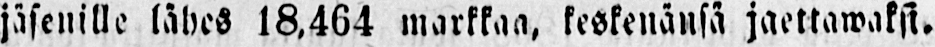jäsenille lähes 18,464 markkaa, keskenänsä jaettawaksi.
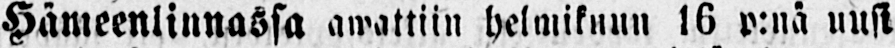Hämeenlinnassa awattiin helmikuun 16 p:nä uusi
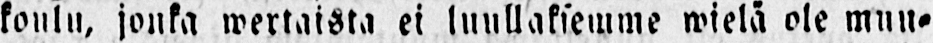koulu, jonka wertaista ei luullaksemme wietä ole muu-
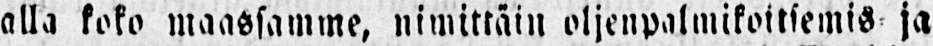alla koko maassamme, nimittäin oljeupalmikoitsemis ja
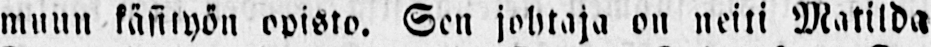muun käsityön opisto. Sen johtaja on neiti Matilda
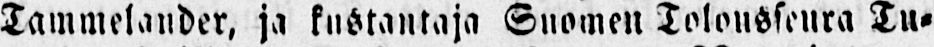Tammelander, ja kustantaja Suomen Tolousenra Tu-
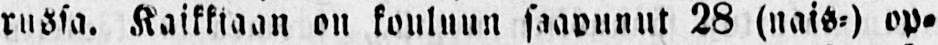rusta. Kaikkiaan on kouluun saapunut 28 (nais-) op-
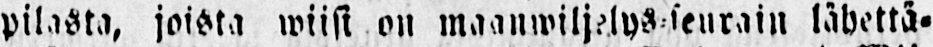pilasta, joista wiisi on maanwiljelys- seurain lähettä-
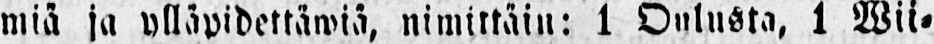miä ja ulläpidettäwiä, nimittäin: 1 Oulusta, 1 Wii-
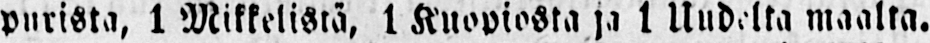purista, 1 Mikkelistä, 1 Kuopiosta ja 1 Uudelta maalta.
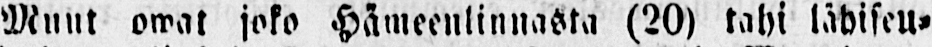Muut owat joko Hämeenlinnasta (20) tahi lähiseu-
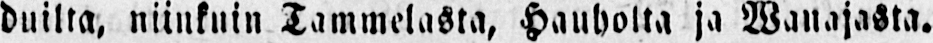duilta, niinkuin Tammelasta, Hauholta ja Wanajasta.
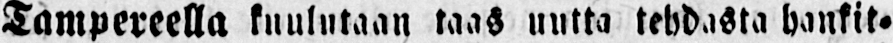Tampereella kuulutaan taas uutta tehdasta hankit-
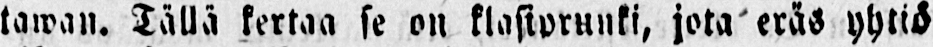tawan. Tällä kertaa se on klasiprunki, jota eräs yhtiö
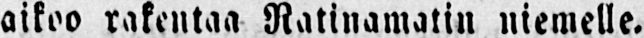aikoo rakentaa Natinamatin niemelle.
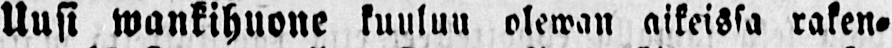Uusi wankihuone kuulun olewan aikeissa raken-
